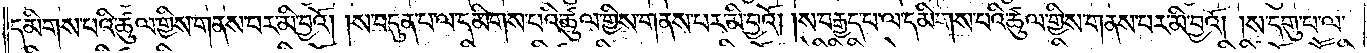དམིགས་པའི་ཚུལ་གྱིས་གནས་པར་མི་བྱའོ། །ས་བདུན་པ་ལ་དམིགས་པའི་ཚུལ་གྱིས་གནས་པར་མི་བྱའོ། །ས་བརྒྱད་པ་ལ་དམིགས་པའི་ཚུལ་གྱིས་གནས་པར་མི་བྱའོ། །ས་དགུ་པ་ལ་
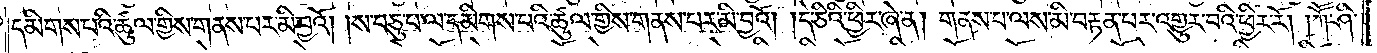དམིགས་པའི་ཚུལ་གྱིས་གནས་པར་མི་བྱའོ། །ས་བཅུ་པ་ལ་དམིགས་པའི་ཚུལ་གྱིས་གནས་པར་མི་བྱའོ། །དེ་ཅིའི་ཕྱིར་ཞེ་ན། གནས་པ་ལས་མི་བརྟན་པར་འགྱུར་བའི་ཕྱིར་རོ། །ཀཽ་ཤི་
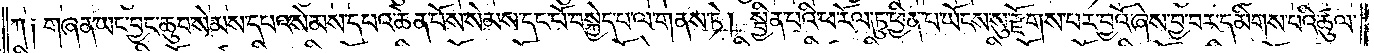ཀ༏ གཞན་ཡང་བྱང་ཆུབ་སེམས་དཔའ་སེམས་དཔའ་ཆེན་པོས་སེམས་དང་པོ་བསྐྱེད་པ་ལ་གནས་ཏེ། སྦྱིན་པའི་ཕ་རོལ་ཏུ་ཕྱིན་པ་ཡོངས་སུ་རྫོགས་པར་བྱའོ་ཞེས་བྱ་བར་དམིགས་པའི་ཚུལ་
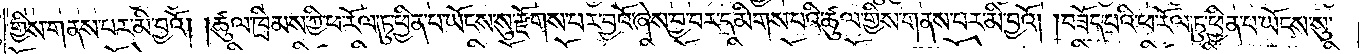གྱིས་གནས་པར་མི་བྱའོ། །ཚུལ་ཁྲིམས་ཀྱི་ཕ་རོལ་ཏུ་ཕྱིན་པ་ཡོངས་སུ་རྫོགས་པར་བྱའོ་ཞེས་བྱ་བར་དམིགས་པའི་ཚུལ་གྱིས་གནས་པར་མི་བྱའོ། །བཟོད་པའི་ཕ་རོལ་ཏུ་ཕྱིན་པ་ཡོངས་སུ་
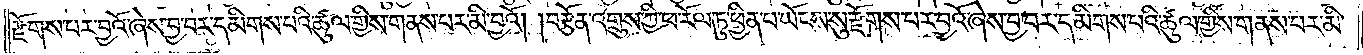རྫོགས་པར་བྱའོ་ཞེས་བྱ་བར་དམིགས་པའི་ཚུལ་གྱིས་གནས་པར་མི་བྱའོ། །བརྩོན་འགྲུས་ཀྱི་ཕ་རོལ་ཏུ་ཕྱིན་པ་ཡོངས་སུ་རྫོགས་པར་བྱའོ་ཞེས་བྱ་བར་དམིགས་པའི་ཚུལ་གྱིས་གནས་པར་མི་
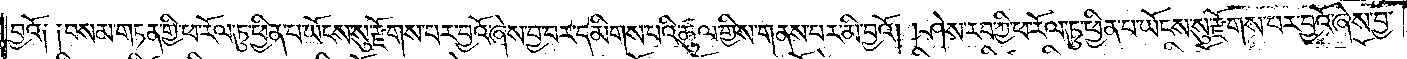བྱའོ༏ ༏བསམ་གཏན་གྱི་ཕ་རོལ་ཏུ་ཕྱིན་པ་ཡོངས་སུ་རྫོགས་པར་བྱའོ་ཞེས་བྱ་བར་དམིགས་པའི་ཚུལ་གྱིས་གནས་པར་མི་བྱའོ། །ཤེས་རབ་ཀྱི་ཕ་རོལ་ཏུ་ཕྱིན་པ་ཡོངས་སུ་རྫོགས་པར་བྱའོ་ཞེས་བྱ་
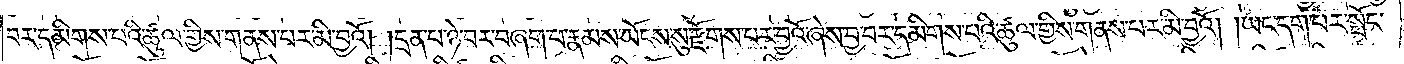བར་དམིགས་པའི་ཚུལ་གྱིས་གནས་པར་མི་བྱའོ། །དྲན་པ་ཉེ་བར་བཞག་པ་རྣམས་ཡོངས་སུ་རྫོགས་པར་བྱའོ་ཞེས་བྱ་བར་དམིགས་པའི་ཚུལ་གྱིས་གནས་པར་མི་བྱའོ། །ཡང་དག་པར་སྤོང་
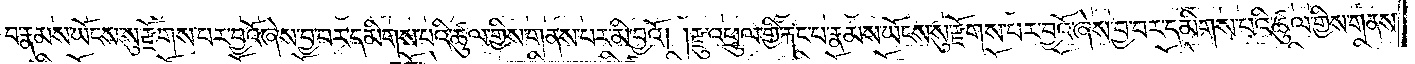བ་རྣམས་ཡོངས་སུ་རྫོགས་པར་བྱའོ་ཞེས་བྱ་བར་དམིགས་པའི་ཚུལ་གྱིས་གནས་པར་མི་བྱའོ། །རྫུ་འཕྲུལ་གྱི་རྐང་པ་རྣམས་ཡོངས་སུ་རྫོགས་པར་བྱའོ་ཞེས་བྱ་བར་དམིགས་པའི་ཚུལ་གྱིས་གནས་
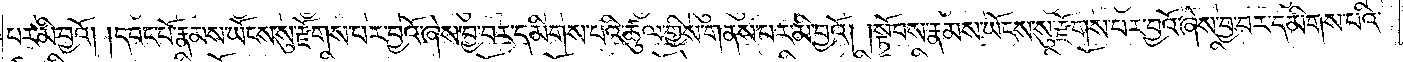པར་མི་བྱའོ། །དབང་པོ་རྣམས་ཡོངས་སུ་རྫོགས་པར་བྱའོ་ཞེས་བྱ་བར་དམིགས་པའི་ཚུལ་གྱིས་གནས་པར་མི་བྱའོ། །སྟོབས་རྣམས་ཡོངས་སུ་རྫོགས་པར་བྱའོ་ཞེས་བྱ་བར་དམིགས་པའི་
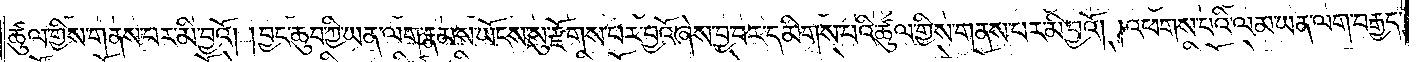ཚུལ་གྱིས་གནས་པར་མི་བྱའོ། །བྱང་ཆུབ་ཀྱི་ཡན་ལག་རྣམས་ཡོངས་སུ་རྫོགས་པར་བྱའོ་ཞེས་བྱ་བར་དམིགས་པའི་ཚུལ་གྱིས་གནས་པར་མི་བྱའོ། །འཕགས་པའི་ལམ་ཡན་ལག་བརྒྱད་
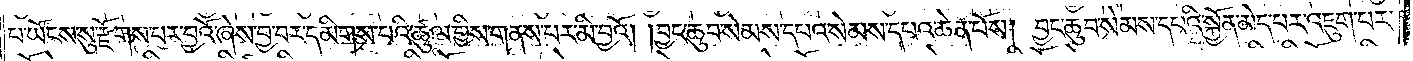པ་ཡོངས་སུ་རྫོགས་པར་བྱའོ་ཞེས་བྱ་བར་དམིགས་པའི་ཚུལ་གྱིས་གནས་པར་མི་བྱའོ། །བྱང་ཆུབ་སེམས་དཔའ་སེམས་དཔའ་ཆེན་པོས། བྱང་ཆུབ་སེམས་དཔའི་སྐྱོན་མེད་པར་འཇུག་པར་
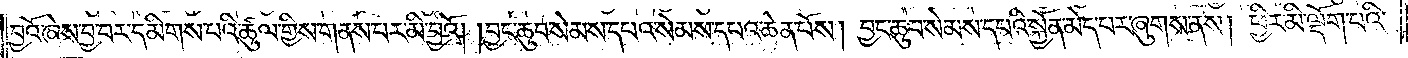བྱའོ་ཞེས་བྱ་བར་དམིགས་པའི་ཚུལ་གྱིས་གནས་པར་མི་བྱའོ། །བྱང་ཆུབ་སེམས་དཔའ་སེམས་དཔའ་ཆེན་པོས། བྱང་ཆུབ་སེམས་དཔའི་སྐྱོན་མེད་པར་ཞུགས་ནས། ཕྱིར་མི་ལྡོག་པའི་
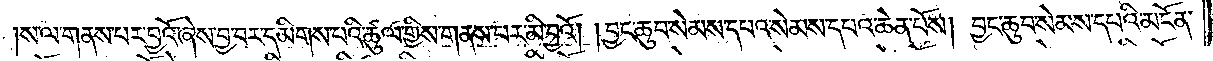ས་ལ་གནས་པར་བྱའོ་ཞེས་བྱ་བར་དམིགས་པའི་ཚུལ་གྱིས་གནས་པར་མི་བྱའོ། །བྱང་ཆུབ་སེམས་དཔའ་སེམས་དཔའ་ཆེན་པོས། བྱང་ཆུབ་སེམས་དཔའི་མངོན་
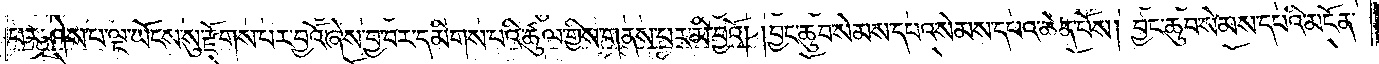པར་ཤེས་པ་ལྔ་ཡོངས་སུ་རྫོགས་པར་བྱའོ་ཞེས་བྱ་བར་དམིགས་པའི་ཚུལ་གྱིས་གནས་པར་མི་བྱའོ། །བྱང་ཆུབ་སེམས་དཔའ་སེམས་དཔའ་ཆེན་པོས། བྱང་ཆུབ་སེམས་དཔའི་མངོན་
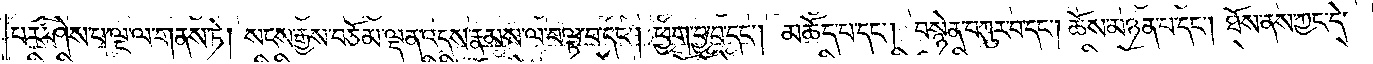པར་ཤེས་པ་ལྔ་ལ་གནས་ཏེ། སངས་རྒྱས་བཅོམ་ལྡན་འདས་རྣམས་ལ་བལྟ་བ་དང༌། ཕྱག་བྱ་བ་དང༌། མཆོད་པ་དང༌། བསྙེན་བཀུར་བ་དང༌། ཆོས་མཉན་པ་དང༌། ཐོས་ནས་ཀྱང་དེ་
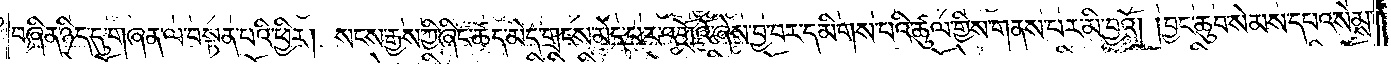བཞིན་ཉིད་དུ་གཞན་ལ་བསྟན་པའི་ཕྱིར། སངས་རྒྱས་ཀྱི་ཞིང་ཚད་མེད་གྲངས་མེད་པར་འགྲོའོ་ཞེས་བྱ་བར་དམིགས་པའི་ཚུལ་གྱིས་གནས་པར་མི་བྱའོ། །བྱང་ཆུབ་སེམས་དཔའ་སེམས་
